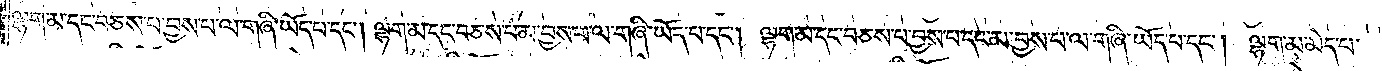ལྷག་མ་དང་བཅས་པ་བྱས་པ་ལ་གཞི་ཡོད་པ་དང༌། ལྷག་མ་དང་བཅས་པ་མ་བྱས་པ་ལ་གཞི་ཡོད་པ་དང༌། ལྷག་མ་དང་བཅས་པ་བྱས་པ་དང་མ་བྱས་པ་ལ་གཞི་ཡོད་པ་དང༌། ལྷག་མ་མེད་པ་
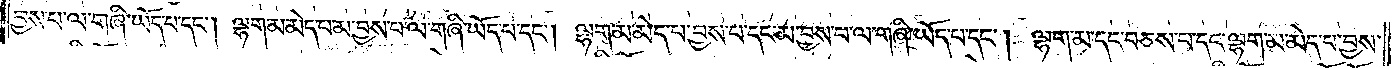བྱས་པ་ལ་གཞི་ཡོད་པ་དང༌། ལྷག་མ་མེད་པ་མ་བྱས་པ་ལ་གཞི་ཡོད་པ་དང༌། ལྷག་མ་མེད་པ་བྱས་པ་དང་མ་བྱས་པ་ལ་གཞི་ཡོད་པ་དང༌། ལྷག་མ་དང་བཅས་པ་དང་ལྷག་མ་མེད་པ་བྱས་
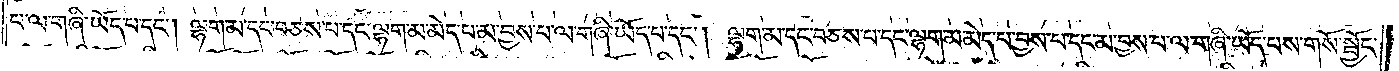པ་ལ་གཞི་ཡོད་པ་དང༌། ལྷག་མ་དང་བཅས་པ་དང་ལྷག་མ་མེད་པ་མ་བྱས་པ་ལ་གཞི་ཡོད་པ་དང༌། ལྷག་མ་དང་བཅས་པ་དང་ལྷག་མ་མེད་པ་བྱས་པ་དང་མ་བྱས་པ་ལ་གཞི་ཡོད་པས་གསོ་སྦྱོང་
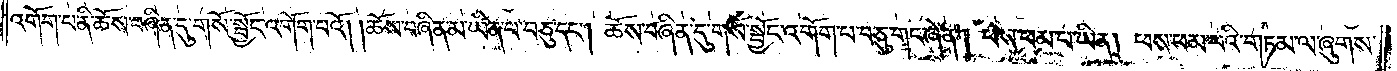འགོག་པ་ནི་ཆོས་བཞིན་དུ་གསོ་སྦྱོང་འགོག་པའོ། །ཆོས་བཞིན་མ་ཡིན་པ་བཅུ་དང༌། ཆོས་བཞིན་དུ་གསོ་སྦྱོང་འགོག་པ་བཅུ་གང་ཞེ་ན། ཕས་ཕམ་པ་ཡིན། ཕས་ཕམ་པའི་གཏམ་ལ་ཞུགས་
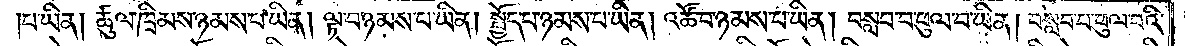པ་ཡིན། ཚུལ་ཁྲིམས་ཉམས་པ་ཡིན། ལྟ་བ་ཉམས་པ་ཡིན། སྤྱོད་པ་ཉམས་པ་ཡིན། འཚོ་བ་ཉམས་པ་ཡིན། བསླབ་པ་ཕུལ་བ་ཡིན། བསླབ་པ་ཕུལ་བའི་
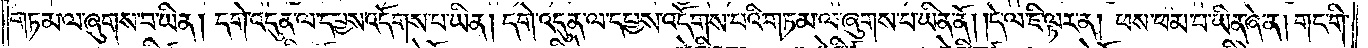གཏམ་ལ་ཞུགས་བ་ཡིན། དགེ་འདུན་ལ་དཔྱས་འདོགས་པ་ཡིན། དགེ་འདུན་ལ་དཔྱས་འདོགས་པའི་གཏམ་ལ་ཞུགས་པ་ཡིན་ནོ། །དེ་ལ་ཇི་ལྟར་ན། ཕས་ཕམ་པ་ཡིན་ཞེ་ན། གང་གི་
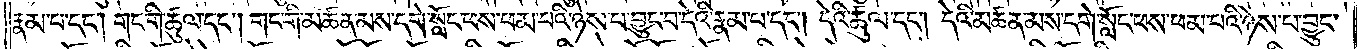རྣམ་པ་དང༌། གང་གི་ཚུལ་དང༌། གང་གི་མཚན་མས་དགེ་སློང་ཕས་ཕམ་པའི་ཉེས་པ་བྱུང་བ་དེའི་རྣམ་པ་དང༌། དེའི་ཚུལ་དང༌། དེའི་མཚན་མས་དགེ་སློང་ཕས་ཕམ་པའི་ཉེས་པ་བྱུང་
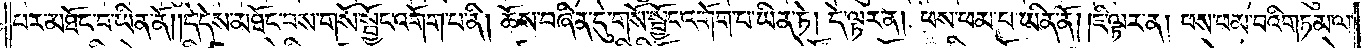པར་མཐོང་བ་ཡིན་ནོ། །དེ་དེས་མཐོང་བས་གསོ་སྦྱོང་འགོག་པ་ནི། ཆོས་བཞིན་དུ་གསོ་སྦྱོང་འགོག་པ་ཡིན་ཏེ། དེ་ལྟར་ན། ཕས་ཕམ་པ་ཡིན་ནོ། །ཇི་ལྟར་ན། ཕས་ཕམ་པའི་གཏམ་ལ་
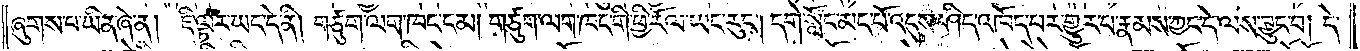ཞུགས་པ་ཡིན་ཞེ་ན། ཇི་ལྟར་ཡང་དེ་ནི། གཙུག་ལག་ཁང་ངམ། གཙུག་ལག་ཁང་གི་ཕྱི་རོལ་ཡང་རུང༌། དགེ་སློང་མང་པོ་འདུས་ཤིད་འཁོད་པར་གྱུར་པ་རྣམས་ཀྱང་དེ་ལས་བྱུང་བ། དེ་
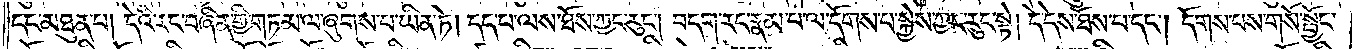དང་མཐུན་པ། དེའི་རང་བཞིན་གྱི་གཏམ་ལ་ཞུགས་པ་ཡིན་ཏེ། དད་པ་ལས་ཐོས་ཀྱང་རུང༌། བདག་རང་རྣམ་པ་ལ་དོགས་པ་སྐྱེས་ཀྱང་རུང་སྟེ། དེ་དེས་ཐོས་པ་དང༌། དོགས་པས་གསོ་སྦྱོང་
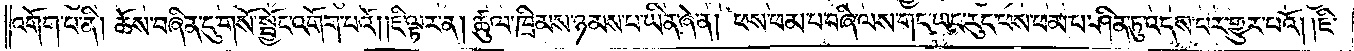འགོག་པ་ནི། ཆོས་བཞིན་དུ་གསོ་སྦྱོང་འགོག་པའོ། །ཇི་ལྟར་ན། ཚུལ་ཁྲིམས་ཉམས་པ་ཡིན་ཞེ་ན། ཕས་ཕམ་པ་བཞི་ལས་གང་ཡང་རུང་ཕས་ཕམ་པ་ཤིན་ཏུ་འདས་པར་གྱུར་པའོ། །ཇི་
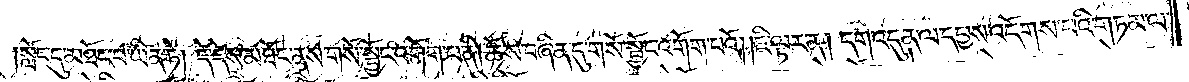།སློང་དུ་མཐོང་བ་ཡིན་ཏེ། དེ་དེས་མཐོང་ནས་གསོ་སྦྱོང་འགོག་པ་ནི། ཆོས་བཞིན་དུ་གསོ་སྦྱོང་འགོག་པའོ། །ཇི་ལྟར་ན། དགེ་འདུན་ལ་དཔྱས་འདོགས་པའི་གཏམ་ལ་
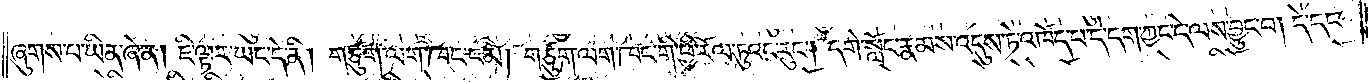ཞུགས་པ་ཡིན་ཞེ་ན། ཇི་ལྟར་ཡང་དེ་ནི། གཙུག་ལག་ཁང་ངམ། གཙུག་ལག་ཁང་གི་ཕྱི་རོལ་ཏུའང་རུང༌། དགེ་སློང་རྣམས་འདུས་ཏེ་འཁོད་པ་དེ་དག་ཀྱང་དེ་ལས་བྱུང་བ། དེ་དང་
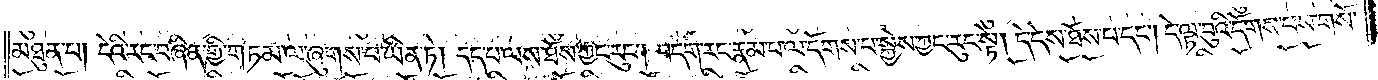མཐུན་པ། དེའི་རང་བཞིན་གྱི་གཏམ་ལ་ཞུགས་པ་ཡིན་ཏེ། དད་པ་ལས་ཐོས་ཀྱང་རུང༌། བདག་རང་རྣམ་པ་ལ་དོགས་པ་སྐྱེས་ཀྱང་རུང་སྟེ། དེ་དེས་ཐོས་པ་དང༌། དེ་ལྟ་བུའི་དོགས་པས་གསོ་
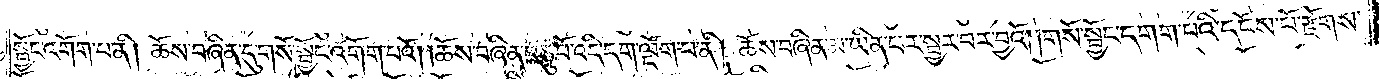སྦྱོང་འགོག་པ་ནི། ཆོས་བཞིན་དུ་གསོ་སྦྱོང་འགོག་པའོ། །ཆོས་བཞིན་བཅུ་པོ་འདི་དག་ལྡོག་པ་ནི། ཆོས་བཞིན་མ་ཡིན་པར་སྦྱར་བར་བྱའོ། །གསོ་སྦྱོང་དགག་པའི་དངོས་པོ་རྫོགས་
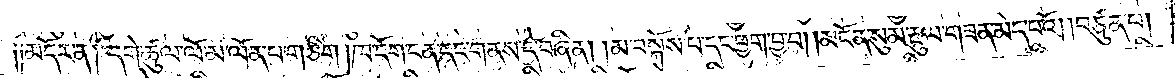སོ༑ ༑མདོར་ན། དགེ་ཚུལ་ལོ་མ་ལོན་པ་གཅིག །ཁ་དོག་ངན་དང་གནས་དེ་བཞིན། །མ་བསྐོས་པ་དང་ཕྱག་བྱ་བ། །མངོན་སུམ་རྡུལ་གཟན་མེད་པའོ། །བཙུན་པ།
